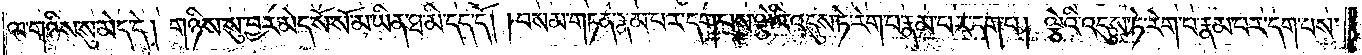ལ་གཉིས་སུ་མེད་དེ། གཉིས་སུ་བྱར་མེད་སོ་སོ་མ་ཡིན་ཐ་མི་དད་དོ། །བསམ་གཏན་རྣམ་པར་དག་པས་ལྕེའི་འདུས་ཏེ་རེག་པ་རྣམ་པར་དག་པ། ལྕེའི་འདུས་ཏེ་རེག་པ་རྣམ་པར་དག་པས་
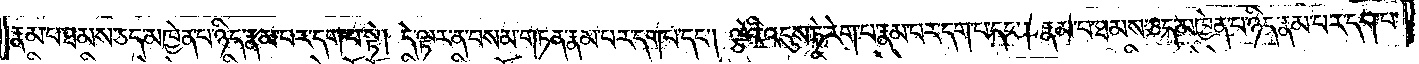རྣམ་པ་ཐམས་ཅད་མཁྱེན་པ་ཉིད་རྣམ་པར་དག་པ་སྟེ། དེ་ལྟར་ན་བསམ་གཏན་རྣམ་པར་དག་པ་དང༌། ལྕེའི་འདུས་ཏེ་རེག་པ་རྣམ་པར་དག་པ་དང༌། རྣམ་པ་ཐམས་ཅད་མཁྱེན་པ་ཉིད་རྣམ་པར་དག་པ་
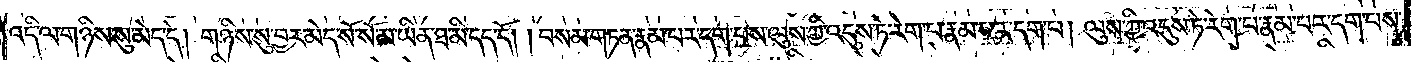འདི་ལ་གཉིས་སུ་མེད་དེ། གཉིས་སུ་བྱར་མེད་སོ་སོ་མ་ཡིན་ཐ་མི་དད་དོ། །བསམ་གཏན་རྣམ་པར་དག་པས་ལུས་ཀྱི་འདུས་ཏེ་རེག་པ་རྣམ་པར་དག་པ། ལུས་ཀྱི་འདུས་ཏེ་རེག་པ་རྣམ་པར་དག་པས་
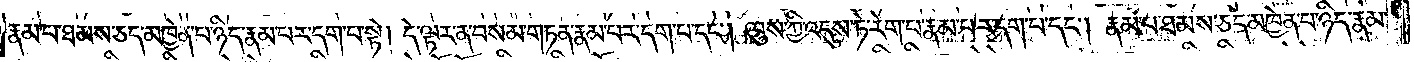རྣམ་པ་ཐམས་ཅད་མཁྱེན་པ་ཉིད་རྣམ་པར་དག་པ་སྟེ། དེ་ལྟར་ན་བསམ་གཏན་རྣམ་པར་དག་པ་དང༌། ལུས་ཀྱི་འདུས་ཏེ་རེག་པ་རྣམ་པར་དག་པ་དང༌། རྣམ་པ་ཐམས་ཅད་མཁྱེན་པ་ཉིད་རྣམ་
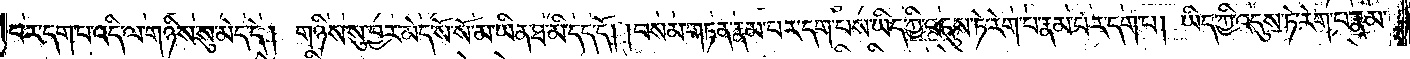པར་དག་པ་འདི་ལ་གཉིས་སུ་མེད་དེ། གཉིས་སུ་བྱར་མེད་སོ་སོ་མ་ཡིན་ཐ་མི་དད་དོ། །བསམ་གཏན་རྣམ་པར་དག་པས་ཡིད་ཀྱི་འདུས་ཏེ་རེག་པ་རྣམ་པར་དག་པ། ཡིད་ཀྱི་འདུས་ཏེ་རེག་པ་རྣམ་
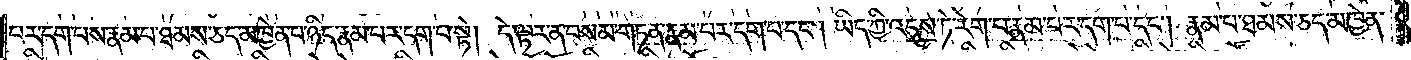པར་དག་པས་རྣམ་པ་ཐམས་ཅད་མཁྱེན་པ་ཉིད་རྣམ་པར་དག་པ་སྟེ། དེ་ལྟར་ན་བསམ་གཏན་རྣམ་པར་དག་པ་དང༌། ཡིད་ཀྱི་འདུས་ཏེ་རེག་པ་རྣམ་པར་དག་པ་དང༌། རྣམ་པ་ཐམས་ཅད་མཁྱེན་
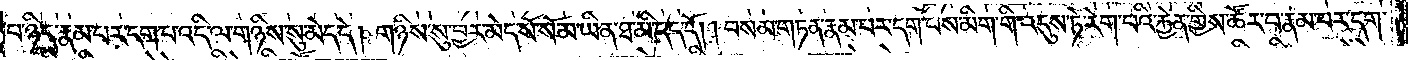པ་ཉིད་རྣམ་པར་དག་པ་འདི་ལ་གཉིས་སུ་མེད་དེ། གཉིས་སུ་བྱར་མེད་སོ་སོ་མ་ཡིན་ཐ་མི་དད་དོ། །བསམ་གཏན་རྣམ་པར་དག་པས་མིག་གི་འདུས་ཏེ་རེག་པའི་རྐྱེན་གྱིས་ཚོར་བ་རྣམ་པར་དག་
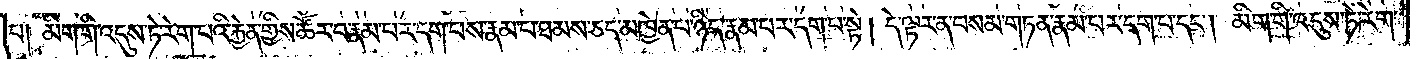པ། མིག་གི་འདུས་ཏེ་རེག་པའི་རྐྱེན་གྱིས་ཚོར་བ་རྣམ་པར་དག་པས་རྣམ་པ་ཐམས་ཅད་མཁྱེན་པ་ཉིད་རྣམ་པར་དག་པ་སྟེ། དེ་ལྟར་ན་བསམ་གཏན་རྣམ་པར་དག་པ་དང༌། མིག་གི་འདུས་ཏེ་རེག་
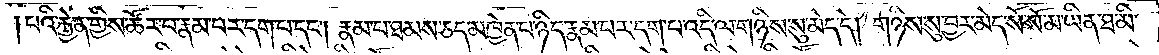པའི་རྐྱེན་གྱིས་ཚོར་བ་རྣམ་པར་དག་པ་དང༌། རྣམ་པ་ཐམས་ཅད་མཁྱེན་པ་ཉིད་རྣམ་པར་དག་པ་འདི་ལ་གཉིས་སུ་མེད་དེ། གཉིས་སུ་བྱར་མེད་སོ་སོ་མ་ཡིན་ཐ་མི་
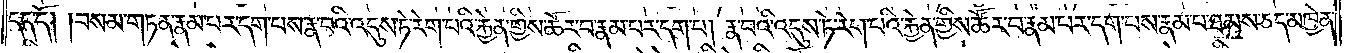དད་དོ། །བསམ་གཏན་རྣམ་པར་དག་པས་རྣ་བའི་འདུས་ཏེ་རེག་པའི་རྐྱེན་གྱིས་ཚོར་བ་རྣམ་པར་དག་པ། རྣ་བའི་འདུས་ཏེ་རེག་པའི་རྐྱེན་གྱིས་ཚོར་བ་རྣམ་པར་དག་པས་རྣམ་པ་ཐམས་ཅད་མཁྱེན་
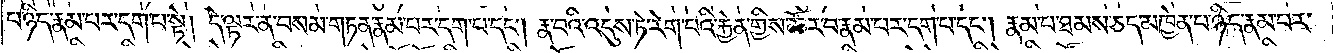པ་ཉིད་རྣམ་པར་དག་པ་སྟེ། དེ་ལྟར་ན་བསམ་གཏན་རྣམ་པར་དག་པ་དང༌། རྣ་བའི་འདུས་ཏེ་རེག་པའི་རྐྱེན་གྱིས་ཚོར་བ་རྣམ་པར་དག་པ་དང༌། རྣམ་པ་ཐམས་ཅད་མཁྱེན་པ་ཉིད་རྣམ་པར་
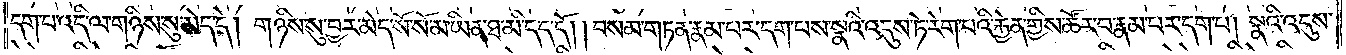དག་པ་འདི་ལ་གཉིས་སུ་མེད་དེ། གཉིས་སུ་བྱར་མེད་སོ་སོ་མ་ཡིན་ཐ་མི་དད་དོ། །བསམ་གཏན་རྣམ་པར་དག་པས་སྣའི་འདུས་ཏེ་རེག་པའི་རྐྱེན་གྱིས་ཚོར་བ་རྣམ་པར་དག་པ། སྣའི་འདུས་
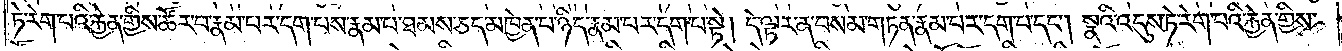ཏེ་རེག་པའི་རྐྱེན་གྱིས་ཚོར་བ་རྣམ་པར་དག་པས་རྣམ་པ་ཐམས་ཅད་མཁྱེན་པ་ཉིད་རྣམ་པར་དག་པ་སྟེ། དེ་ལྟར་ན་བསམ་གཏན་རྣམ་པར་དག་པ་དང༌། སྣའི་འདུས་ཏེ་རེག་པའི་རྐྱེན་གྱིས་
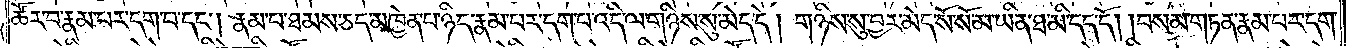ཚོར་བ་རྣམ་པར་དག་པ་དང༌། རྣམ་པ་ཐམས་ཅད་མཁྱེན་པ་ཉིད་རྣམ་པར་དག་པ་འདི་ལ་གཉིས་སུ་མེད་དེ། གཉིས་སུ་བྱར་མེད་སོ་སོ་མ་ཡིན་ཐ་མི་དད་དོ། །བསམ་གཏན་རྣམ་པར་དག་
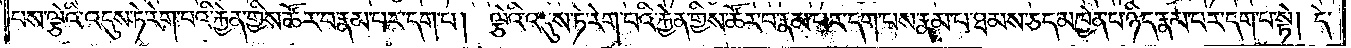པས་ལྕེའི་འདུས་ཏེ་རེག་པའི་རྐྱེན་གྱིས་ཚོར་བ་རྣམ་པར་དག་པ། ལྕེའི་འདུས་ཏེ་རེག་པའི་རྐྱེན་གྱིས་ཚོར་བ་རྣམ་པར་དག་པས་རྣམ་པ་ཐམས་ཅད་མཁྱེན་པ་ཉིད་རྣམ་པར་དག་པ་སྟེ། དེ་
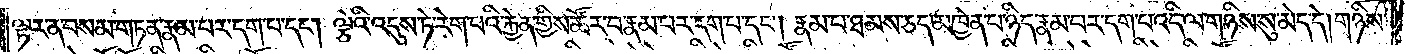ལྟར་ན་བསམ་གཏན་རྣམ་པར་དག་པ་དང༌། ལྕེའི་འདུས་ཏེ་རེག་པའི་རྐྱེན་གྱིས་ཚོར་བ་རྣམ་པར་དག་པ་དང༌། རྣམ་པ་ཐམས་ཅད་མཁྱེན་པ་ཉིད་རྣམ་པར་དག་པ་འདི་ལ་གཉིས་སུ་མེད་དེ། གཉིས་
